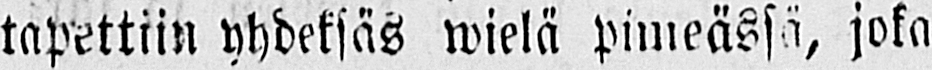tapettiin yhdeksäs wielä pimeässä, joka
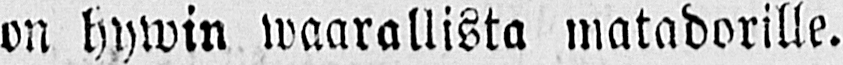on hywin waarallista matadorille.
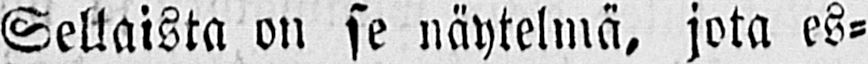Sellaista on se näytelmä, jota es-
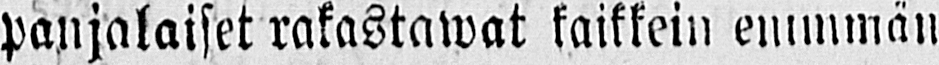panjalaiset rakastawat kaikkein enimmän
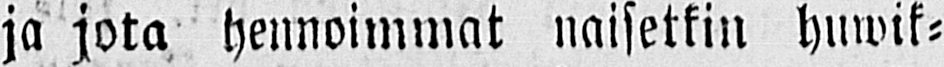ja jota hennoimmat naisetkin huwik-
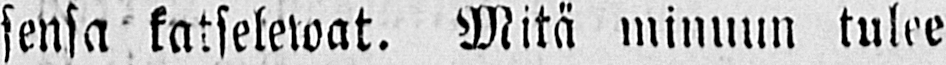sensa katselewat. Mitä minuun tulee
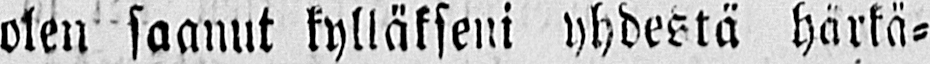olen saanut kylläkseni yhdestä härkä-
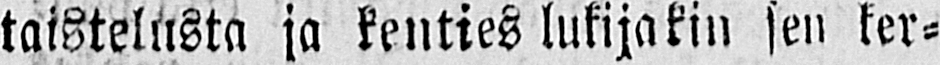taistelusta ja kenties lukijakin sen ker-
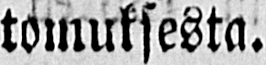tomuksesta.
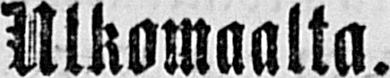Ulkomaalta.
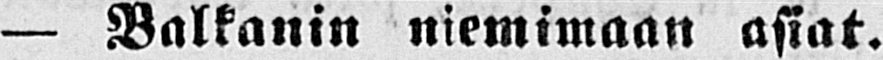— Balkanin niemimaan asiat.
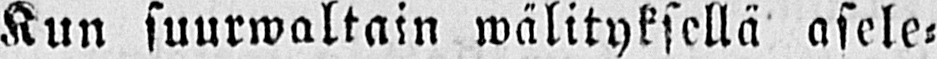Kun suurwaltain wälityksellä asele-
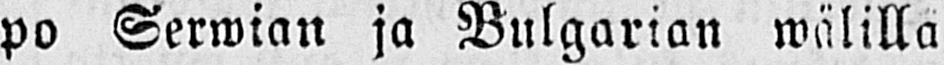po Serwian ja Bulgarian wälillä
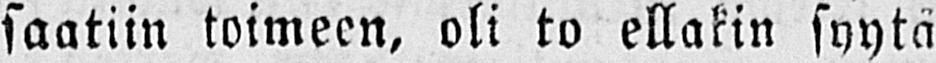saatiin toimeen, oli to ollakin syytä
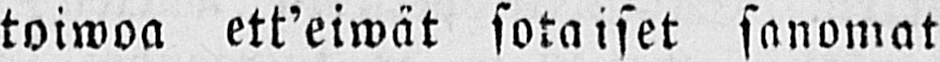toiwoa ett'eiwät sotaiset sanomat
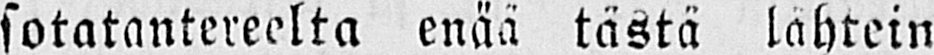sotatantereelta enää tästä lähtein
